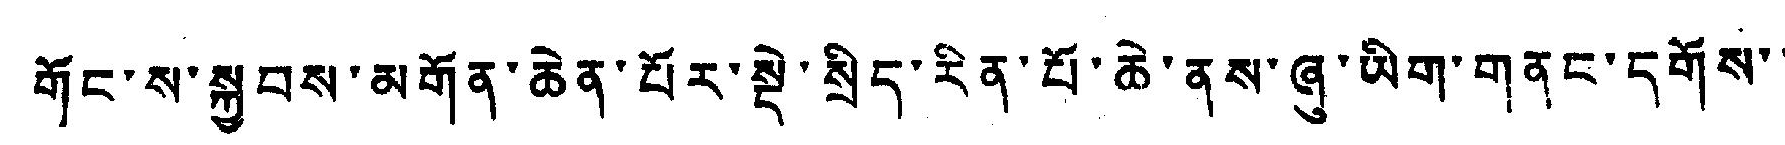གོང་ས་སྐྱབས་མགོན་ཆེན་པོར་སྡེ་སྲིད་རིན་པོ་ཆེ་ནས་ཞུ་ཡིག་གནང་དགོས་་
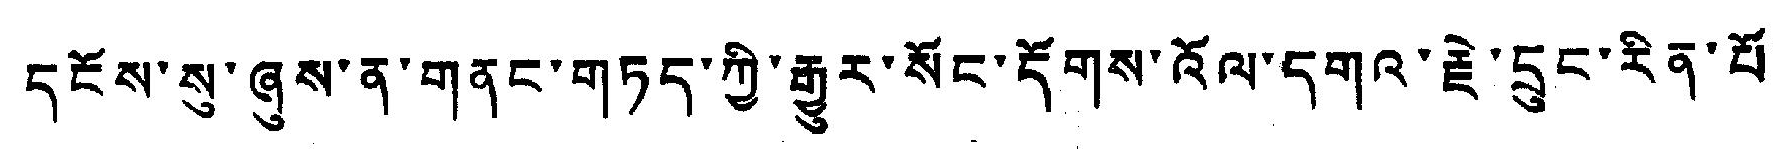དངོས་སུ་ཞུས་ན་གནང་གཏད་ཀྱི་རྒྱུར་སོང་དོགས་འོལ་དགའ་རྗེ་དྲུང་རིན་པོ་
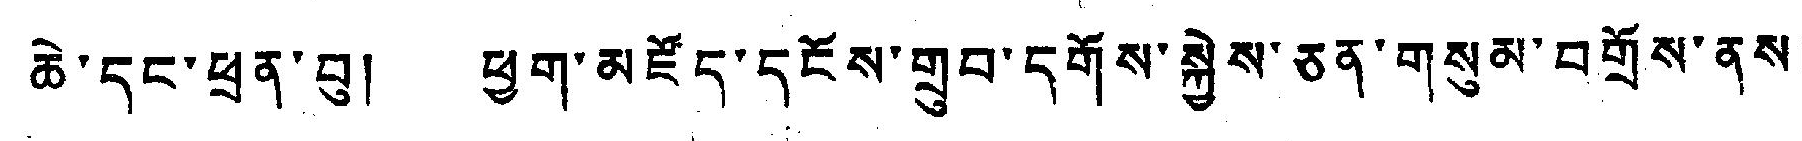ཆེ་དང་ཕྲན་བུ། ཕྱག་མཛོད་དངོས་གྲུབ་དགོས་སྐྱེས་ཅན་གསུམ་བགྲོས་ནས།
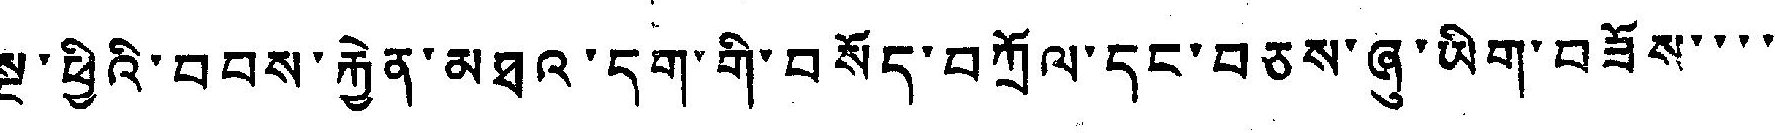སྔ་ཕྱིའི་བབས་རྐྱེན་མཐའ་དག་གི་བསོད་བཀྲོལ་དང་བཅས་ཞུ་ཡིག་བཟོས་་་་
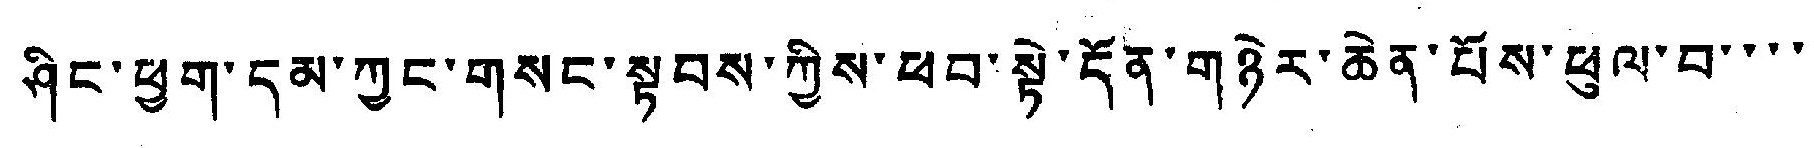ཤིང་ཕྱག་དམ་ཀྱང་གསང་སྟབས་ཀྱིས་ཕབ་སྟེ་དོན་གཉེར་ཆེན་པོས་ཕུལ་བ་་་་
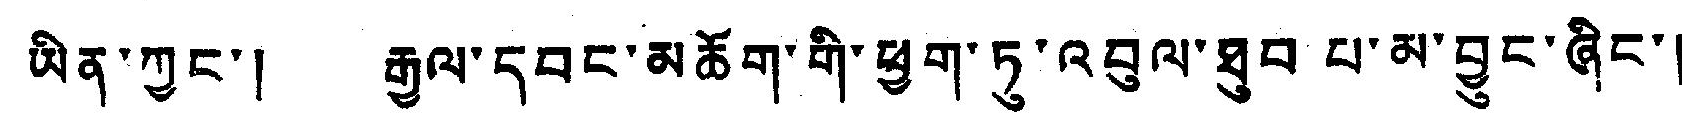ཡིན་ཀྱང་། རྒྱལ་དབང་མཆོག་གི་ཕྱག་ཏུ་འབུལ་ཐུབ་པ་མ་བྱུང་ཞིང་།
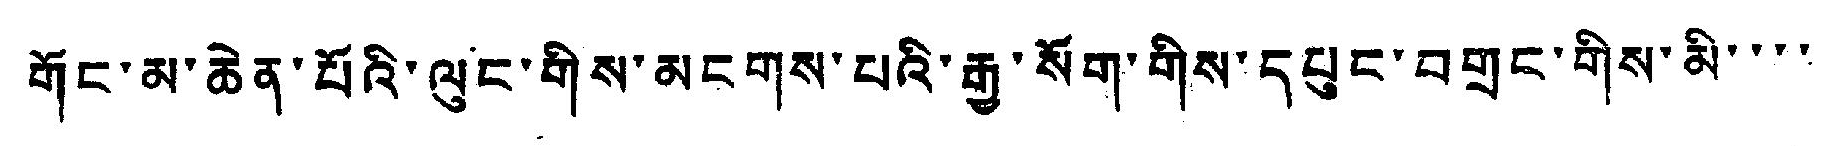གོང་མ་ཆེན་པོའི་ལུང་གིས་མངགས་པའི་རྒྱ་སོག་གིས་དཔུང་བགྲང་གིས་མི་་་་
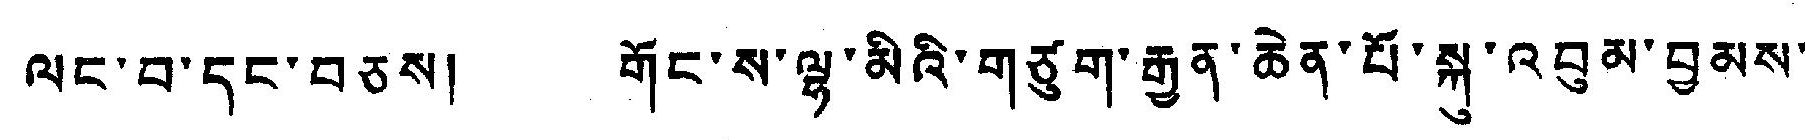ལང་བ་དང་བཅས། གོང་ས་ལྷ་མིའི་གཙུག་རྒྱུན་ཆེན་པོ་སྐུ་འབུམ་བྱམས་་
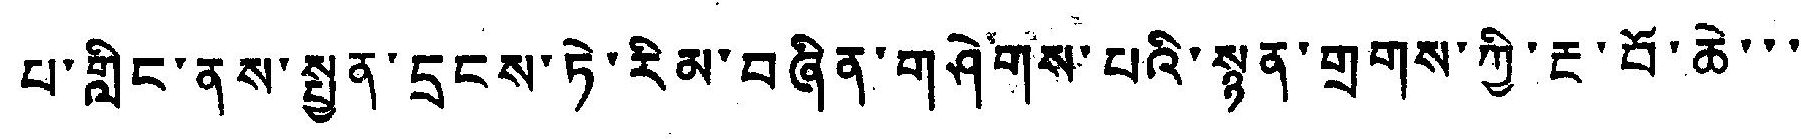པ་གླིང་ནས་སྤྱན་དྲངས་ཏེ་རིམ་བཞིན་གཤེགས་པའི་སྙན་གྲགས་ཀྱི་རྔ་བོ་ཆེ་་་
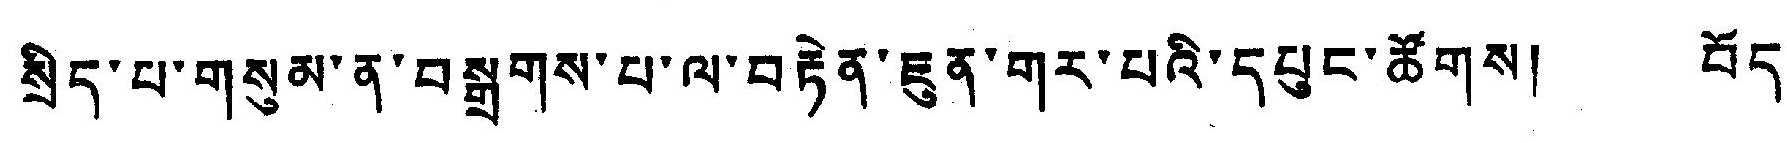སྲིད་པ་གསུམ་ན་བསྒྲགས་པ་ལ་བརྟེན་ཇུན་གར་པའི་དཔུང་ཚོགས། བོད་་
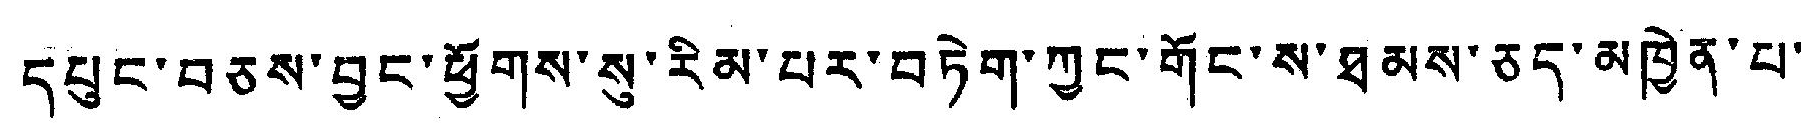དཔུང་བཅས་བྱང་ཕྱོགས་སུ་རིམ་པར་བཏེག་ཀྱང་གོང་ས་ཐམས་ཅད་མཁྱེན་པ་
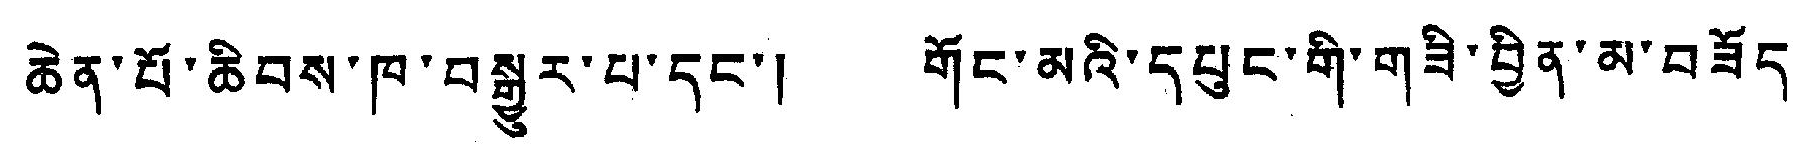ཆེན་པོ་ཆིབས་ཁ་བསྒྱུར་པ་དང་། གོང་མའི་དཔུང་གི་གཟི་བྱིན་མ་བཟོད་་
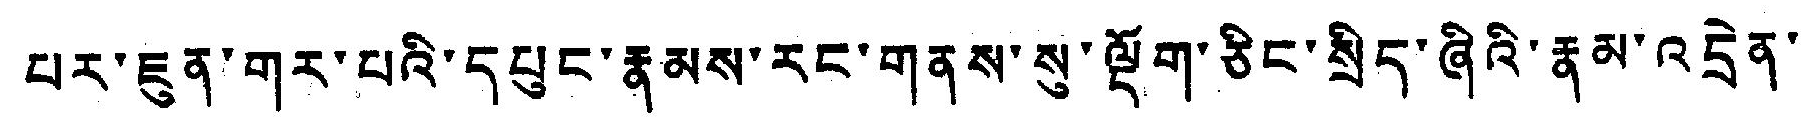པར་ཇུན་གར་པའི་དཔུང་རྣམས་རང་གནས་སུ་ལྡོག་ཅིང་སྲིད་ཞིའི་རྣམ་འདྲེན་
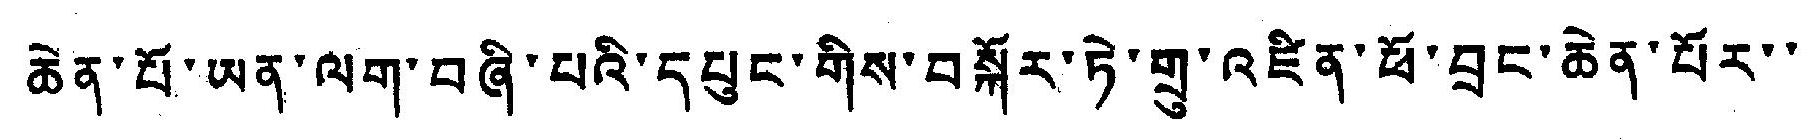ཆེན་པོ་ཡན་ལག་བཞི་པའི་དཔུང་གིས་བསྐོར་ཏེ་གྲུ་འཛིན་ཕོ་བྲང་ཆེན་པོར་་་
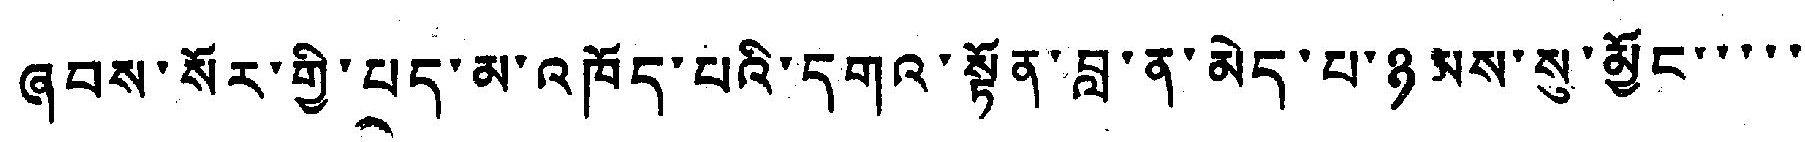ཞབས་སོར་གྱི་པད་མ་འཁོད་པའི་དགའ་སྟོན་བླ་ན་མེད་པ་ཉམས་སུ་མྱོང་་་་་
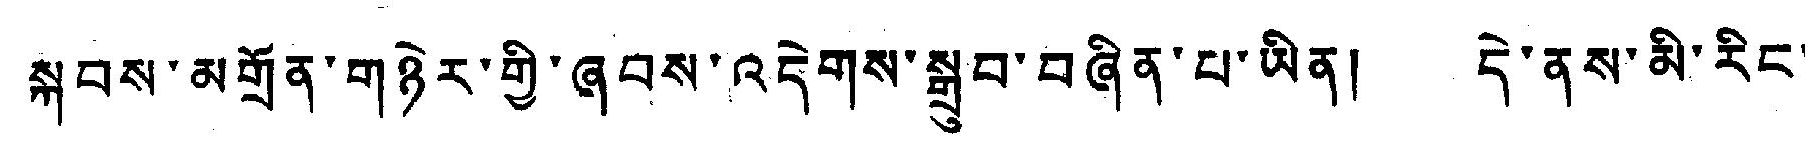སྐབས་མགྲོན་གཉེར་གྱི་ཞབས་འདེགས་སྒྲུབ་བཞིན་པ་ཡིན། དེ་ནས་མི་རིང་
